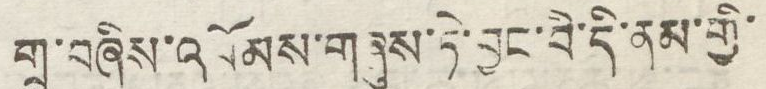གྲུ་བཞིས་འབོམས་གཞུས་ཏེ་བྱང་བི་དི་ནམ་གྱི་
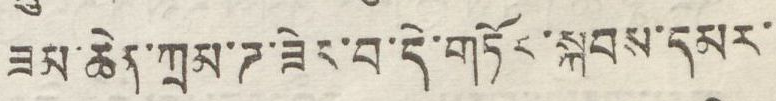ཟམ་ཆེན་ཀྲམ་ཌ་ཟེར་བ་དེ་གཏོར་སྐབས་དམར་
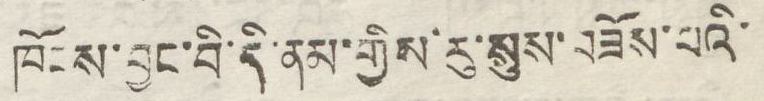ཁོངས་བྱང་བི་དི་ནམ་གྱིས་རུ་སུས་བཟོས་པའི་
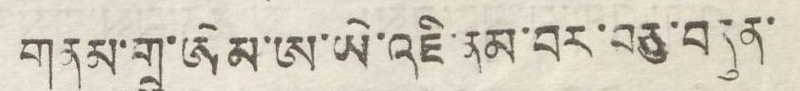གནམ་གྲུ་ཨེམ་ཨ་ཡི་འཇི་ནམ་བར་བཅུ་བདུན་
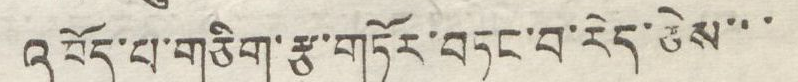འཁོད་པ་གཅིག་རྩ་གཏོར་བཏང་བ་རེད་ཅེས་་་
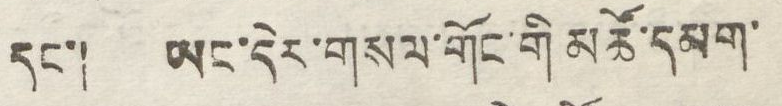དང་། ཡང་དེར་གསལ་གོང་གི མཚོ་དམག་
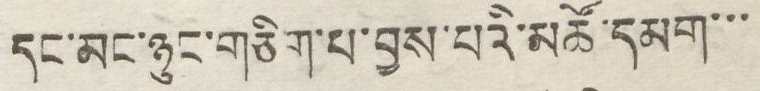དང་མང་ཉུང་གཅིག་པ་བྱས་པའི་མཚོ་དམག་་་
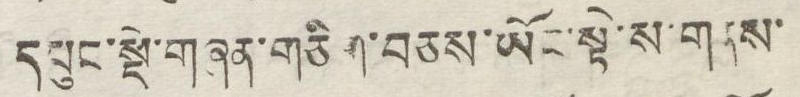དཔུང་སྡེ་གཞན་གཅིག་བཅས་ཡོང་སྟེ་ས་གནས་
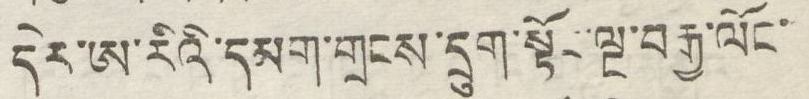དེར་ཨ་རིའི་དམག་གྲངས་དྲུག་སྟོང་ལྔ་བརྒྱ་ལོང་
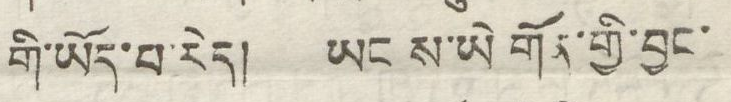གི་ཡོད་པ་རེད། ཡང ས་ཡེ གོན་གྱི་བྱང་
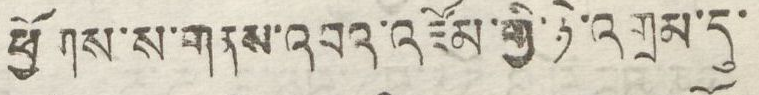ཕྱོགས་ས་གནས་འབའ་འཛོམ་གྱི་ཉེ་འགྲམ་དུ་
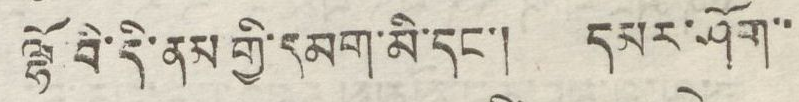ལྷོ་བི་དི་ནམ་གྱི་དམག་མི་དང་། དམར་ཤོག་་
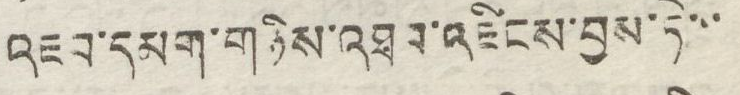འཇབ་དམག་གཉིས་འཐབ་འཛིངས་བྱས་ཏེ་་་
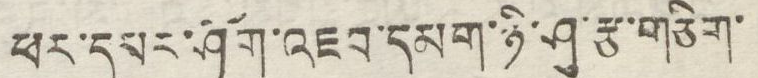ཕར་དམར་ཤོག་འཇབ་དམག་ཉི་ཤུ་རྩ་གཅིག་
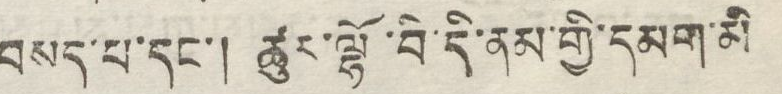བསད་པ་དང་། ཚུར་ལྷོ་བི་དི་ནམ་གྱི་དམག་མི
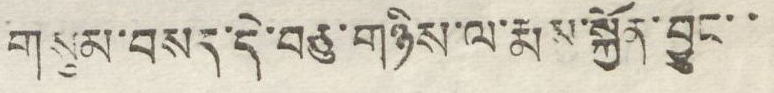གསུམ་བསད་དེ་བཅུ་གཉིས་ལ་རྨས་སྐྱོན་བྱུང་་
